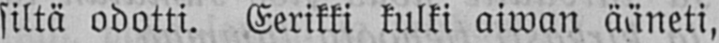siltä odotti. Eerikki kulki aiwan ääneti,
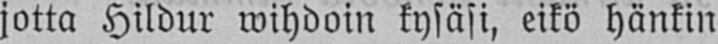jotta Hildur wihdoin kysäsi, eikö hänkin
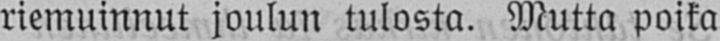riemuinnut joulun tulosta. Mutta poika
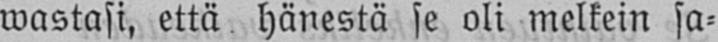wastasi, että hänestä se oli melkein sa-
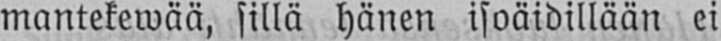mantekewää, sillä hänen isoäidillään ei
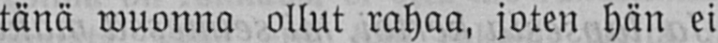tänä wuonna ollut rahaa, joten hän ei
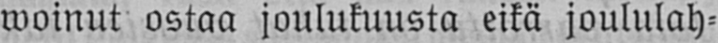woinut ostaa joulukuusta eikä joululah-
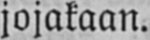jojakaan.
